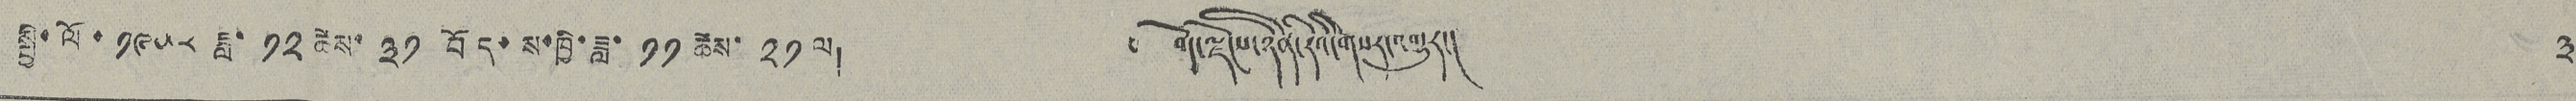སྤྱི་ལོ་༡༩༥༨ ཟླ་ ༡༢ ཚེས་ ༣༡ བོད་ས་ཁྱི་ཟླ་ ༡༡ ཚེས་ ༢༡ ལ།   ༄ བོད་ལྗོངས་ཉིན་རེའི་གསར་འགྱུར།   ༣
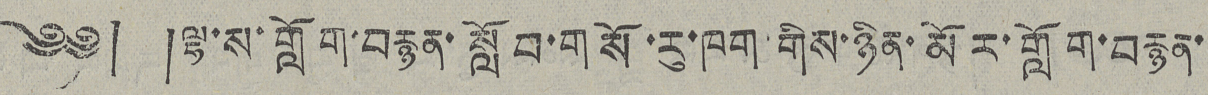༄༅། །ལྷ་ས་གློག་བརྙན་སློབ་གསོ་རུ་ཁག་གིས་ཉིན་མོར་གློག་བརྙན་
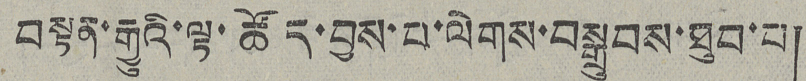བསྟན་རྒྱུའི་ལྟ་ཚོད་བྱས་པ་ལེགས་བསྒྲུབས་ཐུབ་པ།
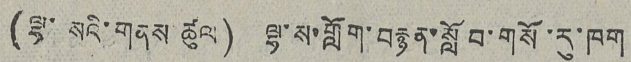(ལྷ་སའི་གནས ཚུལ) ལྷ་ས་གློག་བརྙན་སློབ་གསོ་རུ་ཁག
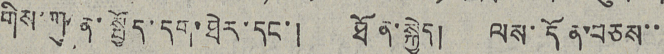གིས་ཀུན་སྤྱོད་དག་ཐེར་དང་། ཐོན་སྐྱེད། ལས་དོན་བཅས་་
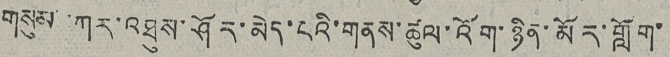གསུམ ཀར་འཐུས་ཤོར་མེད་པའི་གནས་ཚུལ་འོག་ཉིན་མོར་གློག་
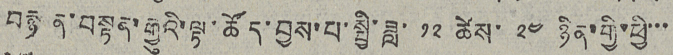བརྙན་བསྟན་རྒྱུའི་ལྟ་ཚོད་བྱས་པ་སྤྱི་ཟླ་ ༡༢ ཚེས་ ༢༤ ཉིན་གྱི་ཕྱི་་་
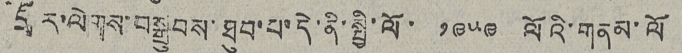དྲོར་ལེགས་བསྒྲུབས་ཐུབ་པ་དེ་ནི་སྤྱི་ལོ་ ༡༩༥༩ ལོའི་གནམ་ལོ
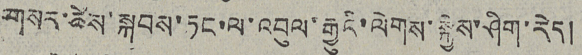གསར་ཚེས་སྐབས་ཏང་ལ་འབུལ་རྒྱུའི་ལེགས་སྐྱེས་ཤིག་རེད།
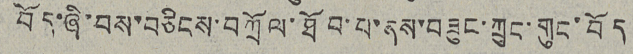བོད་ཞི་བས་བཅིངས་བཀྲོལ་ཐོབ་པ་ནས་བཟུང་ཀྲུང་གུང་བོད
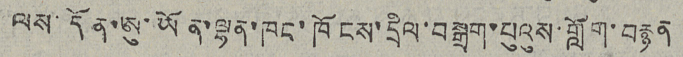ལས་དོན་ཨུ་ཡོན་ལྷན་ཁང་ཁོངས་དྲིལ་བསྒྲག་པུའུས་གློག་བསྙན
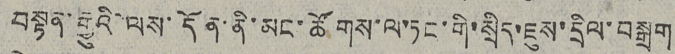བསྟན་རྒྱུའི་ལས་དོན་ནི་མང་ཚོགས་ལ་ཏང་གི་སྲིད་ཇུས་དྲིལ་བསྒྲག
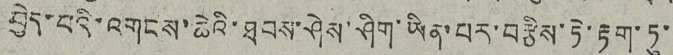བྱེད་པའི་འགངས་ཆེའི་ཐབས་ཤེས་ཤིག་ཡིན་པར་བརྩིས་ཏེ་རྟག་ཏུ་
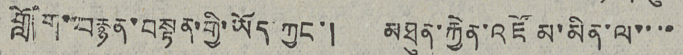གློག་བརྙན་བསྟན་གྱི་ཡོད ཀྱང་། མཐུན་རྐྱེན་འཛོམ་མིན་ལ་་་་
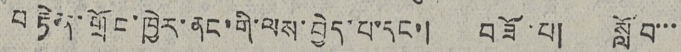བརྟེན་གྲོང་ཁྱེར་ནང་གི་ལས་བྱེད་པ་དང་། བཟོ་པ། སློབ་་་
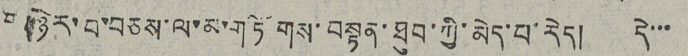གཉེར་བ་བཅས་ལ་མ་གཏོགས་བསྟན་ཐུབ་ཀྱི་མེད་པ་རེད། དེ་་་
